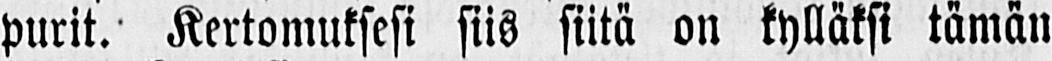purit. Kertomuksesi siis siitä on kylläksi tämän
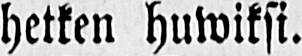hetken huwiksi.
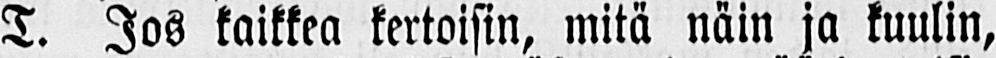T. Jos kaikkea kertoisin, mitä näin ja kuulin,
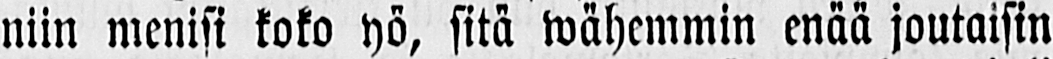niin menisi koko yö, sitä wähemmin enää joutaisin
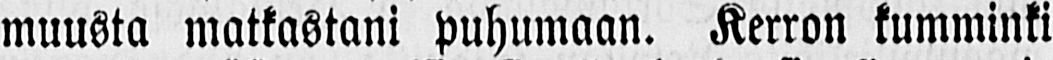muusta matkastani puhumaan. Kerron kumminki
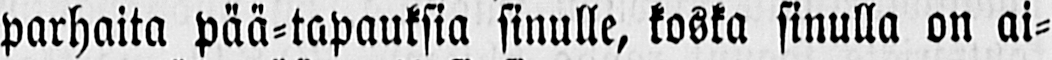parhaita pää-tapauksia sinulle, koska sinulla on ai-
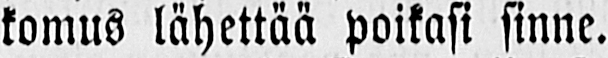komus lähettää poikasi sinne.
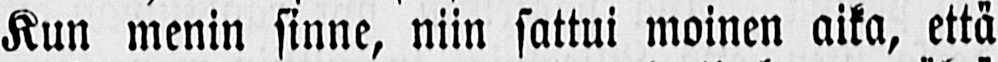Kun menin sinne, niin sattui moinen aika, että
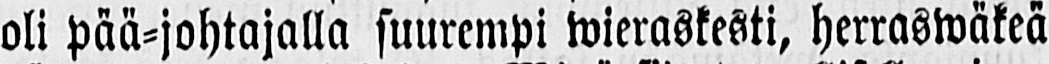oli pää-johtajalla suurempi wieraskesti, herraswäkeä
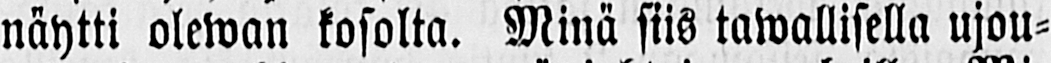näytti olewan kosolta. Minä siis tawallisella ujou-
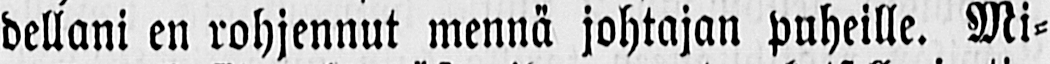dellani en rohjennut mennä johtajan puheille. Mi-
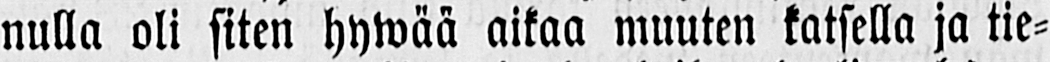nulla oli siten hywää aikaa muuten katsella ja tie-
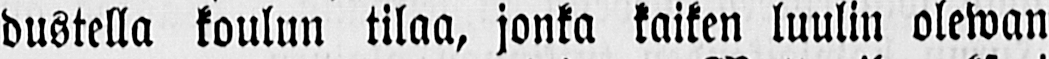dustella koulun tilaa, jonka kaiken luulin olewan
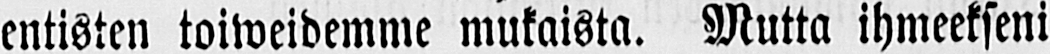entisten toiweidemme mukaista. Mutta ihmeekseni
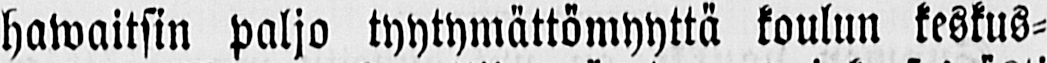hawaitsin paljo tyytymättömyyttä koulun keskus-
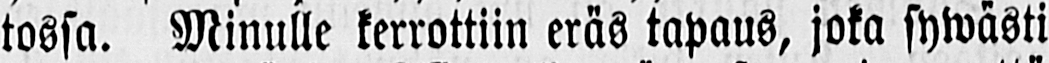tossa. Minulle kerrottiin eräs tapaus, joka sywästi
